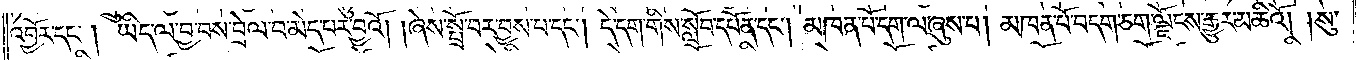འབྱོར་དང༌། ཡིད་ལ་བྱ་བས་བྲེལ་པ་མེད་པར་བྱའོ། །ཞེས་སྤྲོ་བར་བྱས་པ་དང༌། དེ་དག་གིས་སློབ་དཔོན་དང༌། མཁན་པོ་དག་ལ་ཞུས་པ། མཁན་པོ་བདག་ཅག་ལྗོངས་རྒྱུར་མཆིའོ། །སུ་
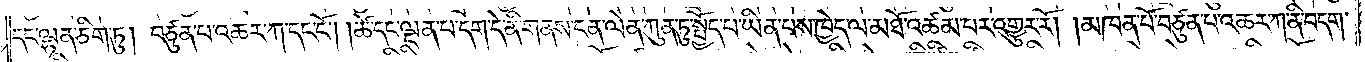དང་ལྷན་ཅིག་ཏུ། བཙུན་པ་འཆར་ཀ་དང་ངོ༌། །ཚེ་དང་ལྡན་པ་དག་དེ་ནི་གནས་ངན་ལེན་ཀུན་ཏུ་སྤྱོད་པ་ཡིན་པས་ཁྱེད་ལ་མཐོ་འཚམ་པར་འགྱུར་རོ། །མཁན་པོ་བཙུན་པ་འཆར་ཀ་ནི་བདག་
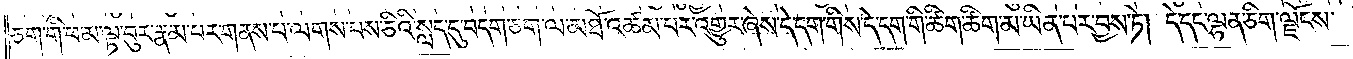ཅག་གི་ཕ་མ་ལྟ་བུར་རྣམ་པར་གནས་པ་ལགས་པས་ཅིའི་སླད་དུ་བདག་ཅག་ལ་མཐོ་འཚམ་པར་འགྱུར་ཞེས་དེ་དག་གིས་དེ་དག་གི་ཚིག་ཚིག་མ་ཡིན་པར་བྱས་ཏེ། དེ་དང་ལྷན་ཅིག་ལྗོངས་
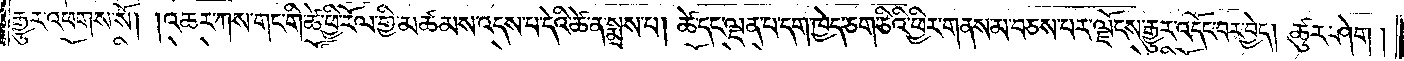རྒྱུར་འཕགས་སོ། །འཆར་ཀས་གང་གི་ཚེ་ཕྱི་རོལ་གྱི་མཚམས་འདས་པ་དེའི་ཚེ་ན་སྨྲས་པ། ཚེ་དང་ལྡན་པ་དག་ཁྱེད་ཅག་ཅིའི་ཕྱིར་གནས་མ་བཅས་པར་ལྗོངས་རྒྱུར་འདོང་བར་བྱེད། ཚུར་ཤེག །
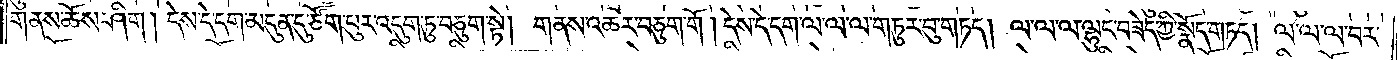གནས་ཆོས་ཤིག །དེས་དེ་དག་མདུན་དུ་ཙོག་པུར་འདུག་ཏུ་བཅུག་སྟེ། གནས་འཆར་བཅུག་གོ། དེས་དེ་དག་ལ་ལ་ལ་གཏུར་བུ་གཏད། ལ་ལ་ལ་ལྷུང་བཟེད་ཀྱི་སྣོད་གཏད། ལ་ལ་ལ་བར་
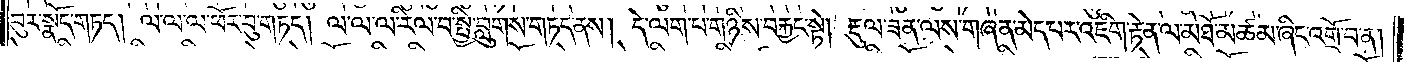བུར་སྣོད་གཏད། ལ་ལ་ལ་ཕོར་བུ་གཏད། ལ་ལ་ལ་རིལ་བ་སྤྱི་བླུགས་གཏད་ནས། དེ་ལག་པ་གཉིས་བརྐྱང་སྟེ། རྡུལ་ཟན་ལས་གཞན་མེད་པར་འཇིག་རྟེན་ལ་མཐོ་མཚམ་ཞིང་འགྲོ་བ་ན།
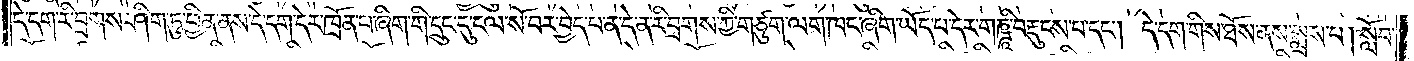དེ་དག་རི་བྲགས་ཤིག་ཏུ་ཕྱིན་ནས་དེ་དག་དེར་ཁྲོན་པ་ཞིག་གི་དྲུང་དུ་ངལ་སོ་བར་བྱེད་པ་ན་དེ་ན་རི་བྲགས་ཀྱི་གཙུག་ལག་ཁང་ཞིག་ཡོད་པ་དེར་གཎྜཱི་བརྡུངས་པ་དང༌། དེ་དག་གིས་ཐོས་ནས་སྨྲས་པ། སློབ་
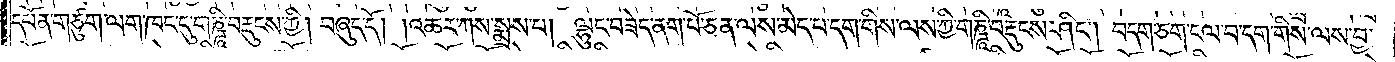དཔོན་གཙུག་ལག་ཁང་དུ་གཎྜཱི་བརྡུངས་ཀྱི། བཞུད་དོ། །འཆར་ཀས་སྨྲས་པ། ལྷུང་བཟེད་ནག་པོ་ཅན་ལས་མེད་པ་དག་གིས་ལས་ཀྱི་གཎྜཱི་བརྡུངས་ཤིང༌། བདག་ཅག་ངལ་བ་དག་གིས་ལས་བྱ་
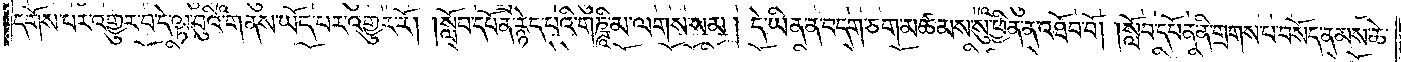དགོས་པར་འགྱུར་བ་དེ་ལྟ་བུའི་གནས་ཡོད་པར་འགྱུར་རོ། །སློབ་དཔོན་རྙེད་པའི་གཎྜཱི་མ་ལགས་སམ། དེ་ཡིན་ན་བདག་ཅག་མཚམས་སུ་ཕྱིན་ན་འཐོབ་བོ། །སློབ་དཔོན་ནི་གྲགས་པ་བསོད་ནམས་ཆེ་
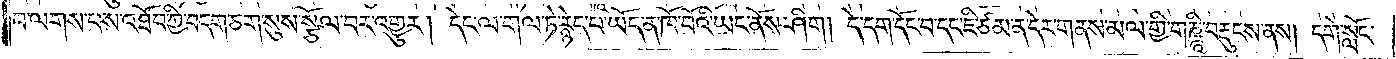བ་ལགས་པས་འཐོབ་ཀྱི་བདག་ཅག་སུས་སྩོལ་བར་འགྱུར། དེང་ལ་གལ་ཏེ་རྙེད་པ་ཡོད་ན་ཁོ་བོའི་ཡང་ནོས་ཤིག །དེ་དག་དོང་བ་དང་ཇི་ཙམ་ན་དེར་གནས་མལ་གྱི་གཎྜཱི་བརྡུངས་ནས། དགེ་སློང་
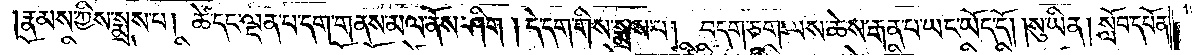རྣམས་ཀྱིས་སྨྲས་པ། ཚེ་དང་ལྡན་པ་དག་གནས་མལ་ནོས་ཤིག །དེ་དག་གིས་སྨྲས་པ། བདག་ཅག་ལས་ཆེས་རྒན་པ་ཡང་ཡོད་དོ། །སུ་ཡིན། སློབ་དཔོན་
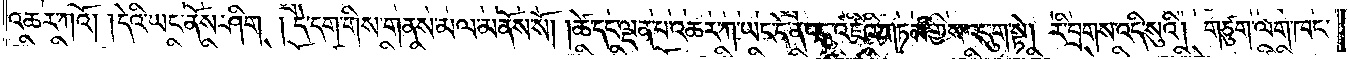འཆར་ཀའོ། །དེའི་ཡང་ནོས་ཤིག །དེ་དག་གིས་གནས་མལ་མནོས་སོ། །ཚེ་དང་ལྡན་པ་འཆར་ཀ་ཡང་དེ་ན་འདུ་འཛིའི་གཏམ་གྱིས་འདུག་སྟེ། རི་བྲགས་འདི་སུའི། གཙུག་ལག་ཁང་
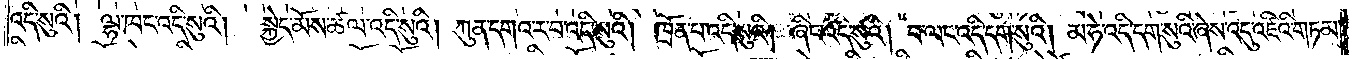འདི་སུའི། ལྷ་ཁང་འདི་སུའི། སྐྱེད་མོས་ཚལ་འདི་སུའི། ཀུན་དགའ་ར་བ་འདི་སུའི། ཁྲོན་པ་འདི་སུའི། ཞིང་འདི་སུའི། བ་ལང་འདི་དག་སུའི། མ་ཧེ་འདི་དག་སུའི་ཞེས་འདུ་འཛིའི་གཏམ་
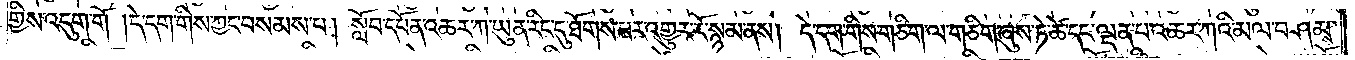གྱིས་འདུག་གོ །དེ་དག་གིས་ཀྱང་བསམས་པ། སློབ་དཔོན་འཆར་ཀ་ཡུན་རིང་དུ་ཐོགས་པར་འགྱུར་རོ་སྙམ་ནས། དེ་དག་གིས་གཅིག་ལ་གཅིག་ཞུས་ཏེ་ཚེ་དང་ལྡན་པ་འཆར་ཀའི་མལ་བཤམས་
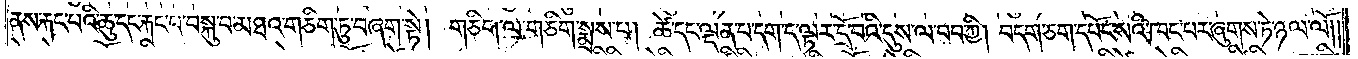ནས་རྐང་པའི་ཆུ་དང་རྐང་པ་བསྐུ་བ་མཐའ་གཅིག་ཏུ་བཞག་སྟེ། གཅིག་ལ་གཅིག་སྨྲས་པ། ཚེ་དང་ལྡན་པ་དག་ད་ལྟར་དྲོ་བའི་དུས་ལ་བབ་ཀྱི། བདག་ཅག་དཔོང་སའི་ཁང་པར་ཞུགས་ཏེ་ཉལ་ལོ༎
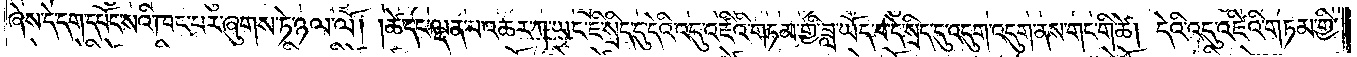ཞེས་དེ་དག་དཔོང་སའི་ཁང་པར་ཞུགས་ཏེ་ཉལ་ལོ། །ཚེ་དང་ལྡན་པ་འཆར་ཀ་ཡང་ཇི་སྲིད་དུ་དེའི་འདུ་འཛིའི་གཏམ་གྱི་ཟླ་ཡོད་པ་དེ་སྲིད་དུ་འདུག་འདུག་ནས་གང་གི་ཚེ། དེའི་འདུ་འཛིའི་གཏམ་གྱི་
